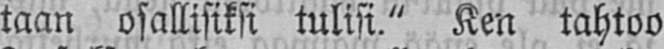taan osallisiksi tulisi." Ken tahtoo
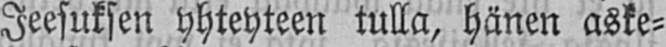Jeesuksen yhteyteen tulla, hänen aske-
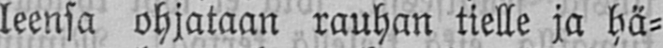leensa ohjataan rauhan tielle ja hä-
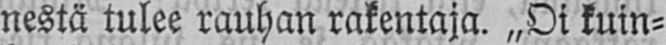nestä tulee rauhan rakentaja. „Oi kuin-
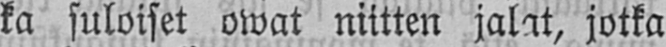ka suloiset owat niitten jalat, jotka
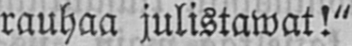rauhaa julistawat!"
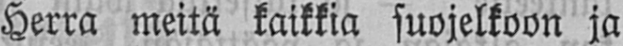Herra meitä kaikkia suojelkoon ja
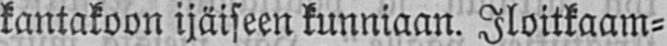kantakoon ijäiseen kunniaan. Iloitkaam-
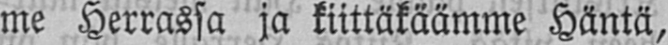me Herrassa ja kiittäkäämme Häntä,
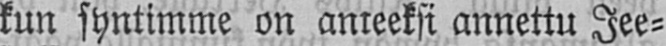kun syntimme on aineeksi annettu Jee-
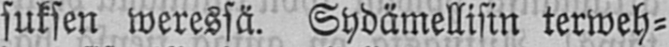suksen weressä. Sydämellisin terweh-
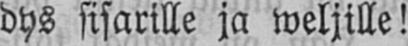dys sisarille ja weljille!
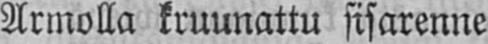Armolla kruunattu sisarenne
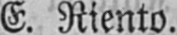E. Riento.
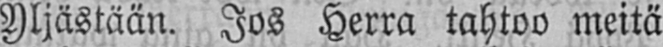Yljästään. Jos Herra tahtoo meitä
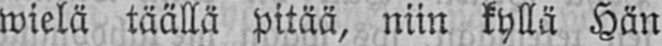wielä täällä pitää, niin kyllä Hän
